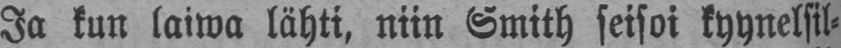Ja kun laiwa lähti, niin Smith seisoi kyynelsil-
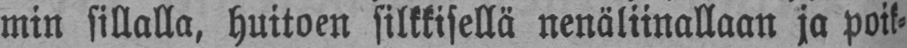min sillalla, huitoen silkkisellä nenäliinallaan ja poik-
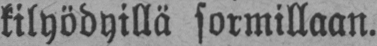kilyödyillä sormillaan.
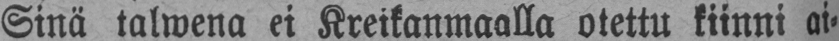Sinä talwena ei Kreikanmaalla otettu kiinni ai-
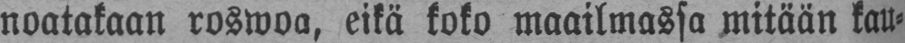noatakaan roswoa, eikä koko maailmassa mitään kau-
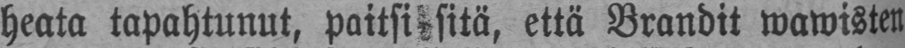heata tapahtunut, paitsi sitä, että Brandit wawisten
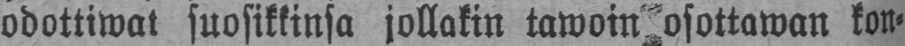odottiwat suosikkinsa jollakin tawoin osottawan kon-
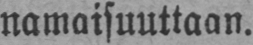namaisuuttaan.
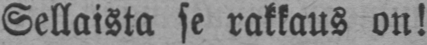Sellaista se rakkaus on!
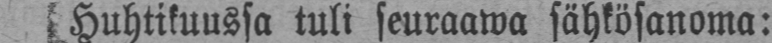Huhtikuussa tuli seuraawa sähkösanoma:
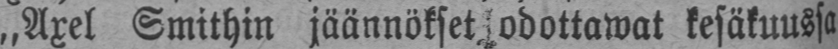„Axel Smithin jäännökset odottawat kesäkuussa
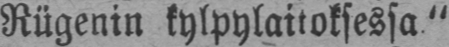Rügenin kylpylaitoksessa."
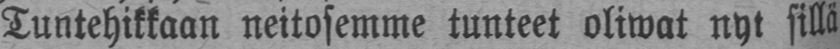Tuntehikkaan neitosemme tunteet oliwat nyt sillä
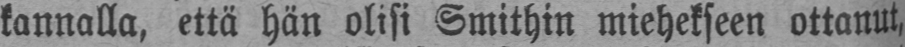kannalla, että hän olisi Smithin miehekseen ottanut,
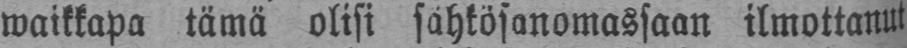waikkapa tämä olisi sähkösanomassaan ilmottanut
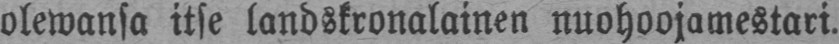olewansa itse landskronalainen nuohoojamestari.
